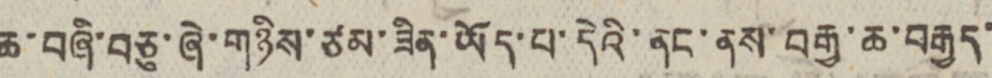ཆ་བཞི་བཅུ་ཞེ་གཉིས་ཙམ་ཟིན་ཡོད་པ་དེའི་ནང་ནས་བརྒྱ་ཆ་བརྒྱད་
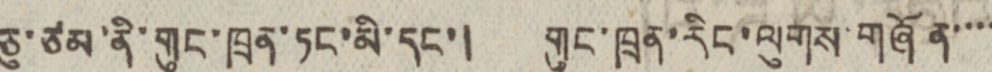ཅུ་ཙམ་ནི་གུང་ཁྲན་ཏང་མི་དང་། གུང་ཁྲན་རིང་ལུགས་གཞོན་་་་
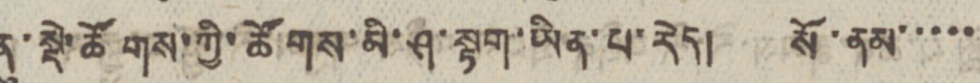ནུ་སྡེ་ཚོགས་ཀྱི་ཚོགས་མི་ཤ་སྟག་ཡིན་པ་རེད། སོ་ནམ་་་་་་
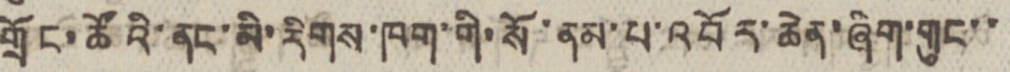གྲོང་ཚོའི་ནང་མི་རིགས་ཁག་གི་སོ་ནམ་པ་འབོར་ཆེན་ཞིག་གུང་་
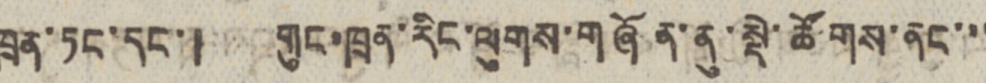ཁྲན་ཏང་དང་། གུང་ཁྲན་རིང་ལུགས་གཞོན་ནུ་སྡེ་ཚོགས་ནང་་་
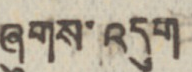ཞུགས་འདུག
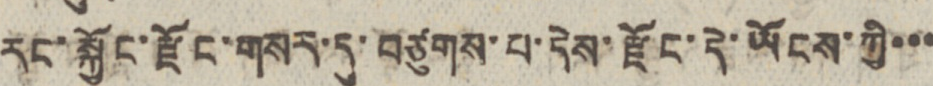རང་སྐྱོང་རྫོང་གསར་དུ་བཙུགས་པ་དེས་རྫོང་དེ་ཡོངས་ཀྱི་་་
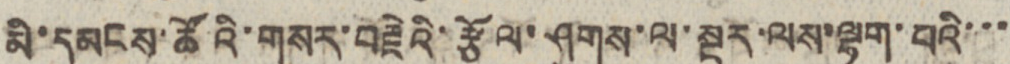མི་དམངས་ཚོའི་གསར་བརྗེའི་རྩོལ་ཤུགས་ལ་སྔར་ལས་ལྷག་པའི་་་
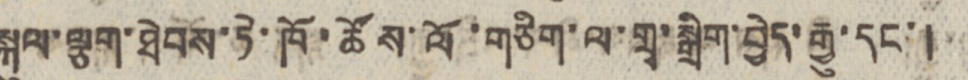སྐུལ་ལྕག་ཐེབས་ཏེ་ཁོ་ཚོས་ལོ་གཅིག་ལ་གྲྭ་སྒྲིག་བྱེད་རྒྱུ་དང་།
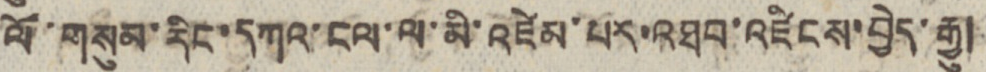ལོ་གསུམ་རིང་དཀའ་ངལ་ལ་མི་འཛེམ་པར་འཐབ་འཛིངས་བྱེད་རྒྱུ།
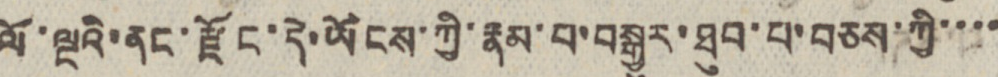ལོ་ལྔའི་ནང་རྫོང་དེ་ཡོངས་ཀྱི་རྣམ་པ་བསྒྱུར་ཐུབ་པ་བཅས་ཀྱི་་་་
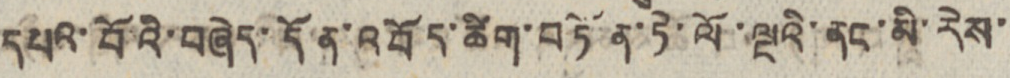དཔའ་བོའི་བཞེད་དོན་འབོད་ཚིག་བཏོན་ཏེ་ལོ་ལྔའི་ནང་མི་རེས་
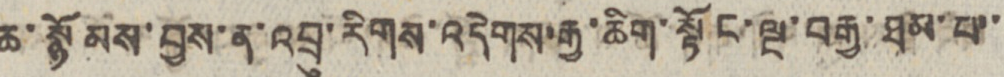ཆ་སྙོམས་བྱས་ན་འབྲུ་རིགས་འདེགས་རྒྱ་ཆིག་སྟོང་ལྔ་བརྒྱ་ཐམ་པ་་
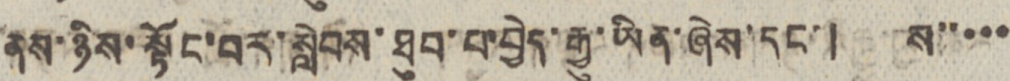ནས་ཉིས་སྟོང་བར་སླེབས་ཐུབ་པ་བྱེད་རྒྱུ་ཡིན་ཞེས་དང་། ས་་་་་
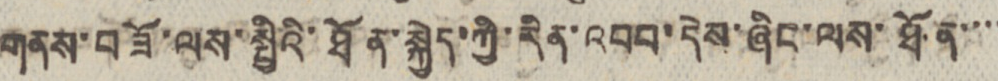གནས་བཟོ་ལས་སྤྱིའི་ཐོན་སྐྱེད་ཀྱི་རིན་འབབ་དེས་ཞིང་ལས་ཐོན་་་་
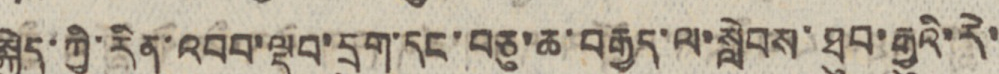སྐྱེད་ཀྱི་རིན་འབབ་ལྡབ་དྲུག་དང་བཅུ་ཆ་བརྒྱད་ལ་སླེབས་ཐུབ་རྒྱུའི་རེ་
